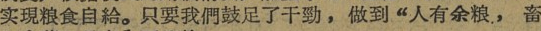实現粮食自給。只要我們鼓足了干勁，做到“人有余粮，畜
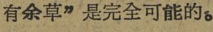有余草”是完全可能。
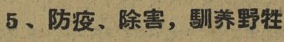5、防疫、除害，馴养野牲
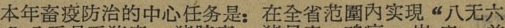本年畜疫防治的中心任务是：在全省范圍内实現“八无六
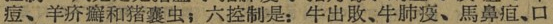痘、羊疥癬和猪囊虫；六控制是：牛出败、牛肺疫、馬鼻疽、口
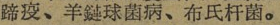蹄疫、羊鏈球菌病、布氏杆菌。
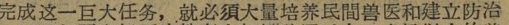完成这一巨大任务，就必須大量培养民間兽医和建立防治
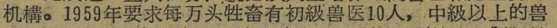机構。1959年要求每万头牲畜有初級兽医10人，中級以上的兽
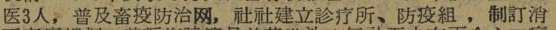医3人，普及畜疫防治网，社社建立診疗所、防疫組，制訂消
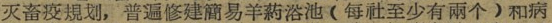灭畜疫規划，普遍修建简易羊葯浴池（每社至少有兩个）和病
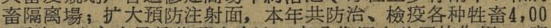畜隔离場；扩大预防注射面，本年共防治、檢疫各种牲畜4，00
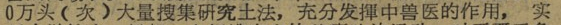0万头（次）大量搜集研究土法，充分发揮中兽医的作用，实
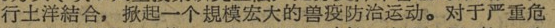行土洋結合，掀起一个規模宏大的兽疫防治运动。对于严重危
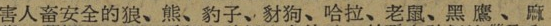害人畜安全的狼、熊、豹子、豺狗、哈拉、老鼠、黑 鹰、麻
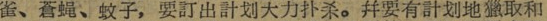雀、苍蝇、蚊子，要訂出計划大力扑杀。并要有計划地獵取和
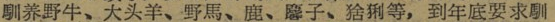馴养野牛、大头羊、野馬、鹿、麘子、猞猁等，到年底要求馴
